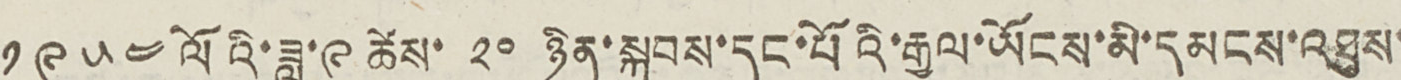༡ ༩ ༥ ༤ ལོའི་ཟླ་༩ ཚེས་ ༢༠ ཉིན་སྐབས་དང་པོའི་རྒྱལ་ཡོངས་མི་དམངས་འཐུས་
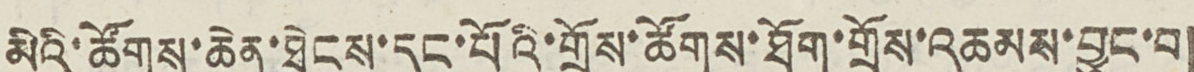མིའི་ཚོགས་ཆེན་ཐེངས་དང་པོའི་གྲོས་ཚོགས་ཐོག་གྲོས་འཆམས་བྱུང་བ།
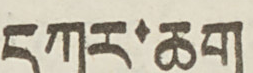དཀར་ཆག
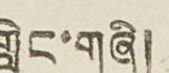གླེང་གཞི།
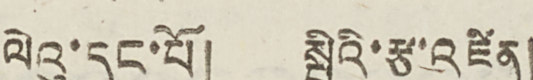ལེའུ་དང་པོ། སྤྱིའི་རྩ་འཛིན།
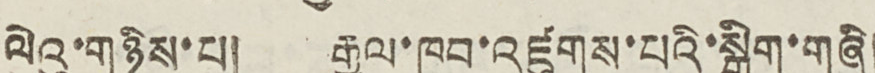ལེའུ་གཉིས་པ། རྒྱལ་ཁབ་འཛུགས་པའི་སྒྲིག་གཞི།
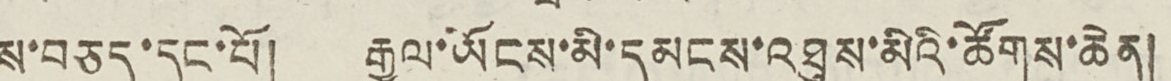ས་བཅད་དང་པོ། རྒྱལ་ཡོངས་མི་དམངས་འཐུས་མིའི་ཚོགས་ཆེན།
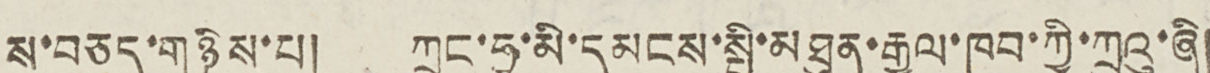ས་བཅད་གཉིས་པ། ཀྲུང་ཧྭ་མི་དམངས་སྤྱི་མཐུན་རྒྱལ་ཁབ་ཀྱི་ཀྲུའུ་ཞི།
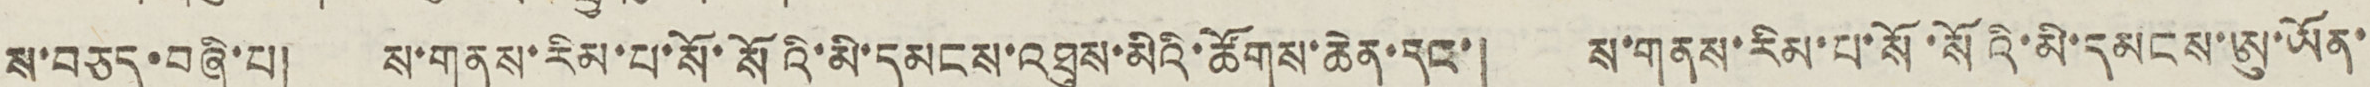ས་བཅད་བཞི་པ། ས་གནས་རིམ་པ་སོ་སོའི་མི་དམངས་འཐུས་མིའི་ཚོགས་ཆེན་དང་། ས་གནས་རིམ་པ་སོ་སོའི་མི་དམངས་ཨུ་ཡོན་
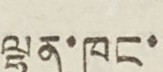ལྷན་ཁང་།
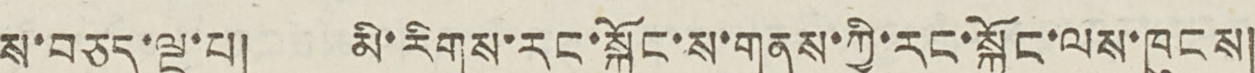ས་བཅད་ལྔ་པ། མི་རིགས་རང་སྐྱོང་ས་གནས་ཀྱི་རང་སྐྱོང་ལས་ཁུངས།
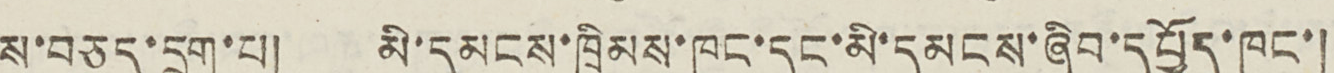ས་བཅད་དྲུག་པ། མི་དམངས་ཁྲིམས་ཁང་དང་མི་དམངས་ཞིབ་དཔྱོད་ཁང་།
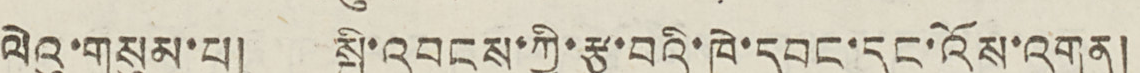ལེའུ་གསུམ་པ། སྤྱི་འབངས་ཀྱི་རྩ་བའི་ཁེ་དབང་དང་འོས་འགན།
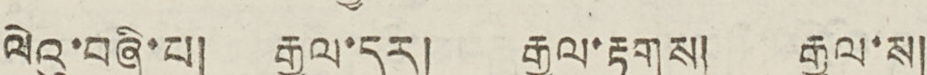ལེའུ་བཞི་པ། རྒྱལ་དར། རྒྱལ་རྟགས། རྒྱལ་ས།
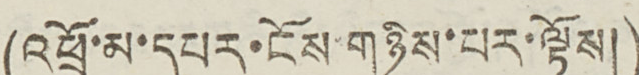ལེའུ་བཞི་པ། རྒྱལ་དར། རྒྱལ་རྟགས། རྒྱལ་ས། (འཕྲོ་མ་དཔར་ངོས་གཉིས་པར་ལྟོས།)
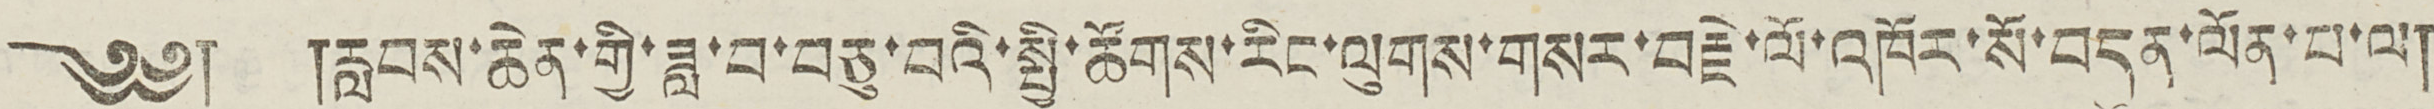༄༅། །རླབས་ཆེན་གྱི་ཟླ་བ་བཅུ་བའི་སྤྱི་ཚོགས་རིང་ལུགས་གསར་བརྗེ་ལོ་འཁོར་སོ་བདན་ལོན་པ་ལ།
